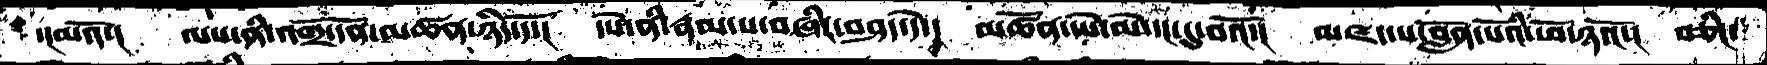་།མའོ་།   ལས་ནི་འགྲོ་དོན་མཚན་ཉིད་དོ་།  དཔེ་ནི་རྣམ་པ་བཞིར་བཤད་དེ་།  མཚོན་དཔེ་མེ་དང་དུ་བའོ་།  མཛད་པ་བློན་པོའི་ཕོ་ཉའོ་།  བཅིང་
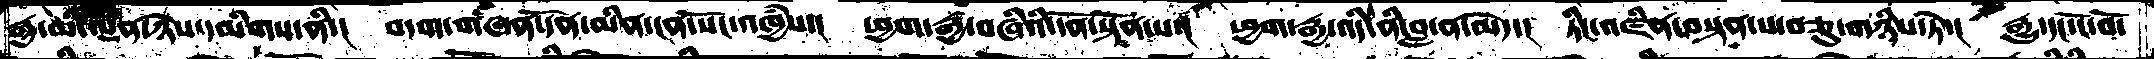རྒྱ་མི་ལྡན་ཉེས་དམིགས་ནི་།  བདག་གཞན་དོན་མིན་ངན་སོང་འཁྱཾས་།  ཕྱག་རྒྱ་བཞིའི་དོན་སྟོན་པ་།  ཕྱག་རྒྱ་འདི་ནི་བླ་ན་མེད་།  ཏིང་འཛིན་བསྟན་པ་བཅུ་གཉིས་ཏེ་།  རྒྱུ་དང་ངོ་བོ་
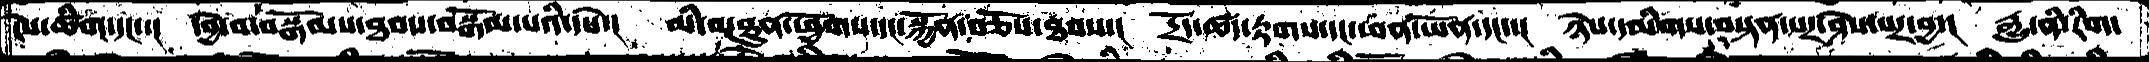ངེས་ཚིག་དང་་།  དབྱེ་བ་བསྒོམས་ཐབས་བསྒོམ་པའི་དཔེ་།  མི་མཐུན་ཕྱོགས་དང་སྐྱོན་བཅོས་ཐབས་། དྲོད་ཚད་རྟགས་དང་ཕན་ཡོན་དང་་།  ཉེས་དམིགས་བསྟན་པར་ཤེས་པར་བྱ་།  རྒྱུ་ནི་རིག་
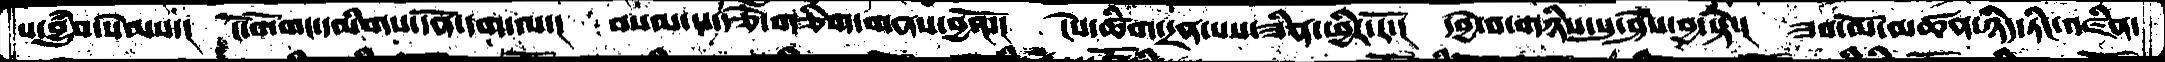པ་བྱུཾབ་སེམས་།  ངོ་བོ་གང་དམིགས་དོན་དག་ལ་།  བསམ་པ་རྩེ་གཅིག་གནས་བྱའོ་།  ངེས་ཚིག་དྲན་པས་ཟིན་ཕྱིར་རོ་།  དབྱེ་བ་གཉིས་སུ་ཤེས་བྱ་སྟེ་།  ཟབ་མོ་མཚན་ཉིད་ཏིང་འཛིན་
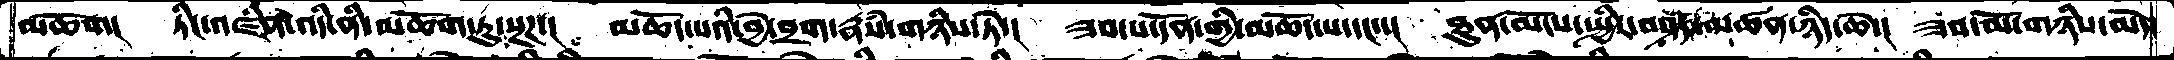མཆོག།  ཏིང་འཛིན་འདི་ནི་མཆོག་ཏུ་སྔཌ་།  མཆོད་པའི་བྱེ་བྲག་རྣཾས་གཉིས་ཏེ་།  ཟབ་པ་དོན་གྱི་མཆོད་པ་དང་་།  ཐུན་མོངས་སྤྱིར་བཤད་མཚན་ཉིད་ཆེ་།  ཟབ་མོ་གཉིས་མེད་
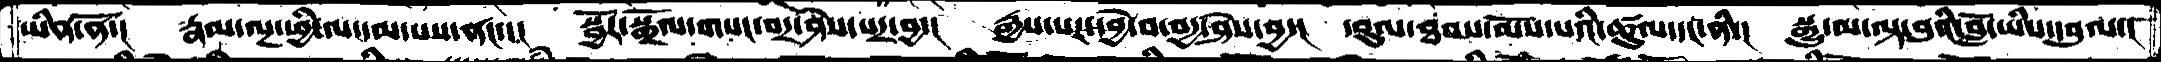ཡིན་ནོ་།  རྣམ་ལྔ་ཕྱི་ལ་དམ་པས་ནང་་།  སྦྱོར་སྒྲོལ་གསང་བར་ཤེས་པར་བྱ་།  རྒྱས་པར་དབྱེ་བ་བདྱ་ཤེས་བྱ་།  དབུལ་ཐབས་མོས་པའི་ཚུལ་དང་ནི་།  སྒྱུ་མ་ལྟ་བུའི་བློ་ཡིས་དབུལ་།
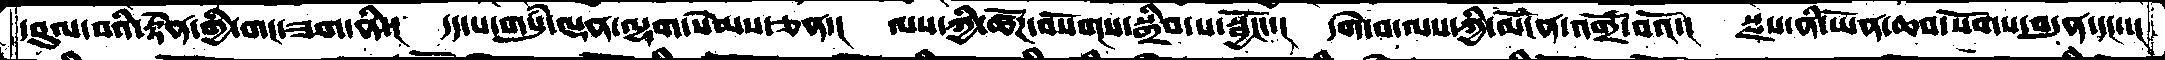དབུལ་བའི་རྟེན་གྱི་གང་ཟག་ནི་།  དད་པ་གསུཾ་ལྡན་ལྷག་སེམས་ཅན་།  ལས་ཀྱི་ཚོཌ་བསོགས་སྒྲིབ་པ་སྦྱོང་་།  དགེ་བ་ལས་ཀྱི་མངོན་འགྲོ་བའོ་།  སྫས་ནི་ཡོན་ཆབ་སོགས་བདུན་དང་་།
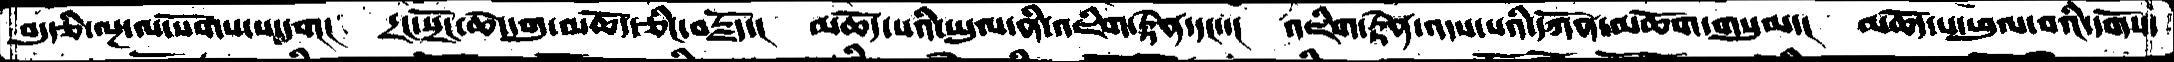བདུད་རྩི་ལྔ་ལ་སོགས་པ་དག།  དྲང་སྲོང་ཆེ་དགུ་མཆོད་ཅིང་བརྗོད་།   མཆོད་པའི་ཡུལ་ནི་འཇིག་རྟེན་དང་་།  འཇིག་རྟེན་འདས་པའི་དཀོན་མཆོག་གསུམ་།  མཆོད་པ་ཕུལ་བའི་དགོས་
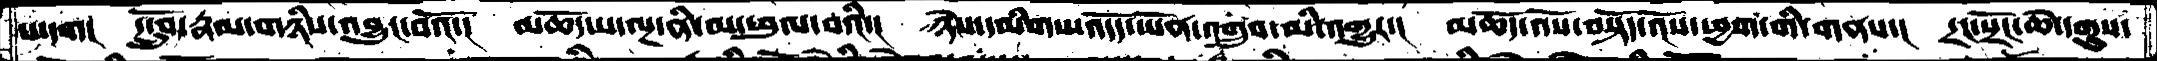པ་དག།  དངྲོུབ་རྣམ་གཉིས་འབྱུང་བའོ་།  མཆོད་པ་ལྔ་ནི་མ་ཕུལ་བའི་།  ཉེས་དམིགས་འདོད་ཡོན་འགྲུབ་མི་འགྱུར་།  མཆོད་འོས་བསྟོད་འོས་ཕྱག་གི་གནས་།  དྲང་སྲོང་ཆེ་དགུས་
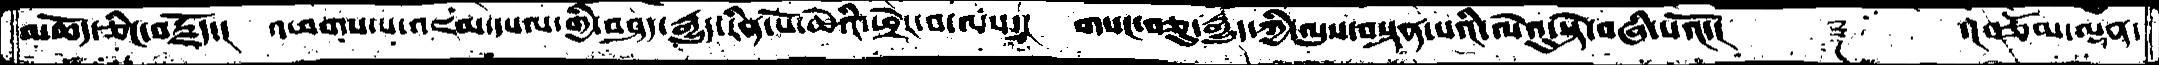མཆོད་ཅིང་བརྗོད་།  འཕགས་པ་འཇམ་དཔལ་གྱི་བཤད་རྒྱུད་རིན་པོ་ཆེའི་ཕྲེང་བ་ལས་།  གསང་བཅུ་རྒྱུད་ཀྱི་ལུས་བསྟན་པའི་ལེའུ་སྟེ་བཞི་པའོ་།     ༈   ་།བཅོམ་ལྡན་
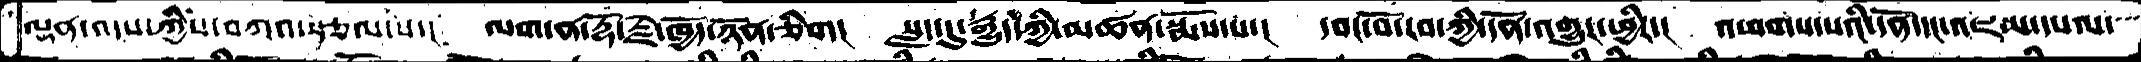ལྡན་འདས་ཀྱིས་བཀའ་སྩལ་པ་།  ལག་ན་རྡོ་རྗེ་ཁྱོད་ཉོན་ཅིག།  སླད་དུ་རྒྱུད་ཀྱི་མཚན་སྨོས་པ་།  དབང་བོ་རབ་ཀྱི་དོན་འགྱུར་ཕྱིར་།  འཕགས་པའི་དོན་དང་འཇམ་དཔལ་
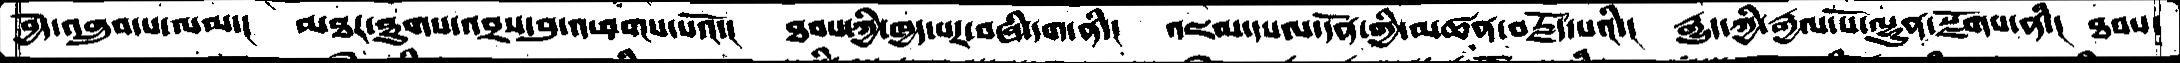བྱེད་འགྲུབ་པ་ལམ་།  མཐར་ཐུགས་འབྲས་བུ་འཕགས་པའོ་།  ཐབས་ཀྱི་ཁྱད་པར་བཞི་དག་ནི་།  འཇམ་དཔལ་དོན་གྱི་མཚན་བརྗོད་པའི་།  རྒྱུད་ཀྱི་རྒྱལ་པོ་ལྷུན་སྫོགས་ནི་།  ཐབས་
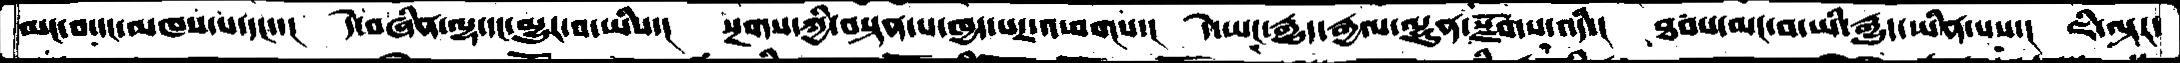མང་བ་དང་མཁས་པ་དང་་།  དེ་བཞིན་ལྷ་དང་མྱུར་བ་ཡིས་།  སྔགས་ཀྱི་བསྟན་པ་ཁྱད་པར་འཕགས་།  དེ་ཡང་རྒྱུད་རྒྱལ་ལྷུན་སྫོགས་འདི་།  ཐབས་མང་བ་ཡི་རྒྱུད་ཡིན་པས་།  ཇི་ལྟར་
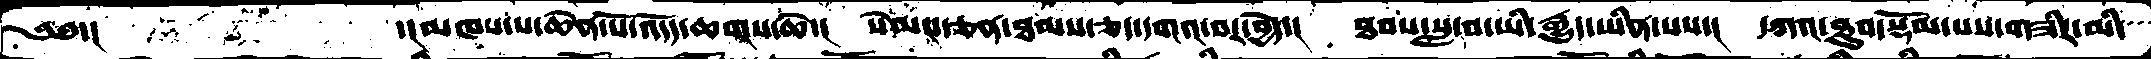༄༅་།     ་།མཁས་པ་ཆེན་པོ་འདོད་ཆགས་ཆེ་།  སེམས་ཅན་ཐམས་ཅད་དགའ་བར་བྱེད་།  ཐབས་སླ་བ་ཡི་རྒྱུད་ཡིན་པས་།  དཀའ་ཐུབ་སྡོམ་པས་གཟིར་མི་
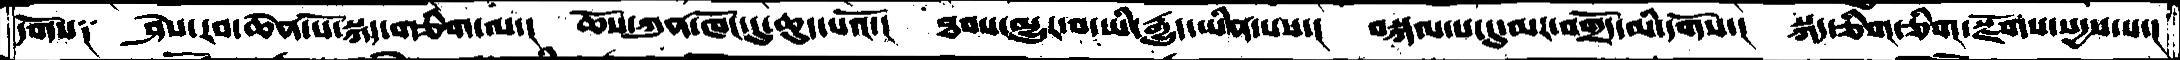དགོས༑  ཤེས་རབ་ཆེན་པོ་སྐད་གཅིག་ལ་།  ཆོས་ཀུན་ཁོང་དུ་ཆུད་པའོ་།  ཐབས་མྱུར་བ་ཡི་རྒྱུད་ཡིན་པས་།  བསྐལ་པ་དུ་མར་བགྲོད་མི་དགོས་།  སྐད་ཅིག་ཅིག་སྫོགས་སདྱས་པ་།
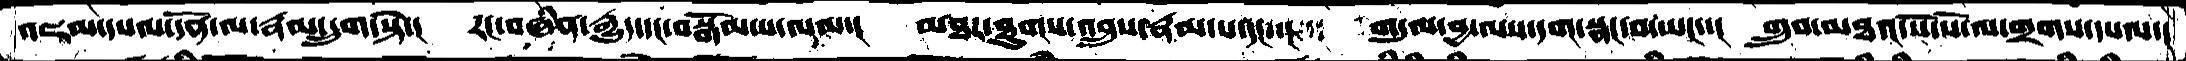འཇམ་དཔལ་དོན་ལ་རྣམ་དྲུག་སྟེ་།  རང་བཞིན་རྒྱུད་དང་བསྒོམས་པ་ལམ་།  མཐར་ཐུགས་འབྲུས་རྣམ་པ་དང་་།  གདུལ་བྱ་ལས་དག་སྣང་བ་ཡང་་།  གྲུབ་མཐའ་སོ་སོ་ལ་གྲགས་དཔལ་།
